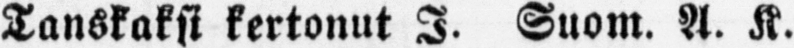Tanskaksi kertonut I. Suom. A. K.
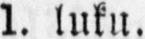1. luku.
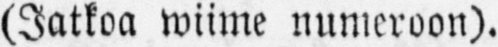(Jatkoa wiime numeroon).
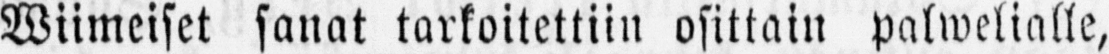Wiimeiset sanat tarkoitettiin osittain palwelialle,
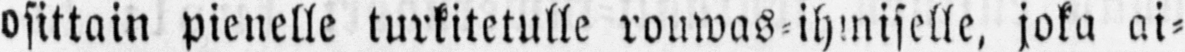osittain pienelle turkitetulle rouwas-ihmiselle, joka ai-
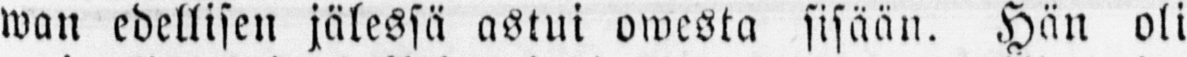wan edellisen jälessä astui owesta sisään. Hän oli
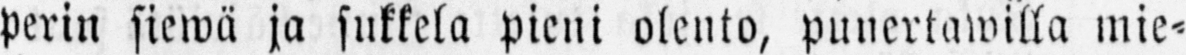perin siewä ja sukkela pieni olento, punertawilla mie-
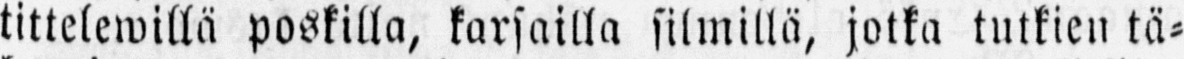tittelewillä poskilla, karsailla silmillä, jotka tutkien tä-
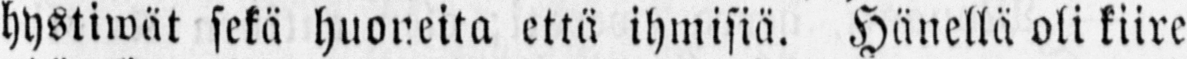hystiwät sekä huoneita että ihmisiä. Hänellä oli kiire
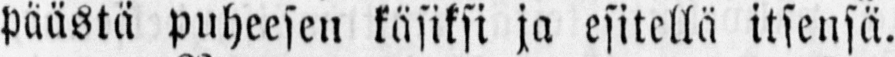päästä puheesen käsiksi ja esitellä itsensä.
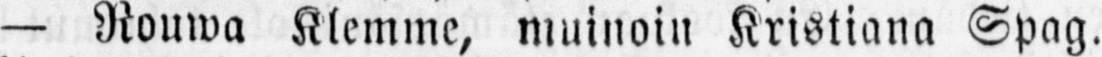— Rouwa Klemme, muinoin Kristiana Spag.
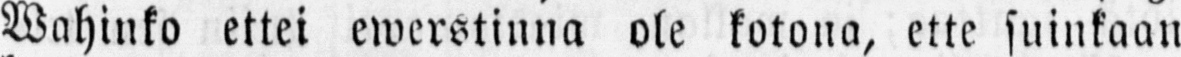Wahinko ettei ewerstinna ole kotona, ette suinkaan
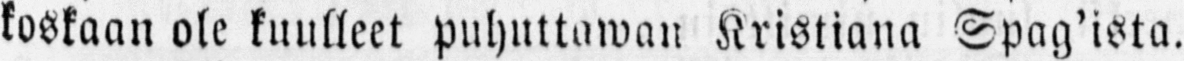koskaan ole kuulleet puhuttawan Kristiana Spag'ista.
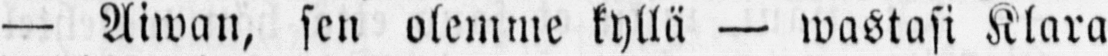— Aiwan, sen olemme kyllä — wastasi Klara
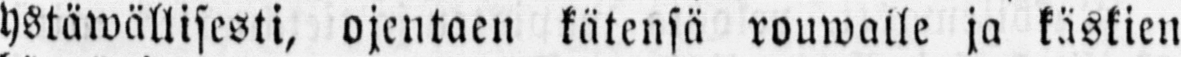ystäwällisesti, ojentaen kätensä rouwalle ja käskien
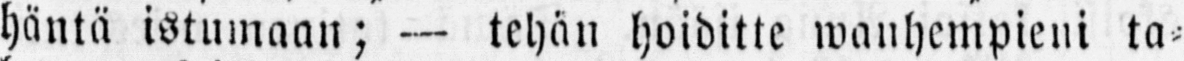häntä istumaan; — tehän hoiditte wanhempieni ta-
